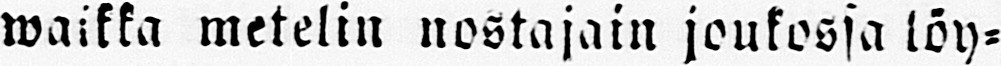waikka metelin nostajain joukossa löy-
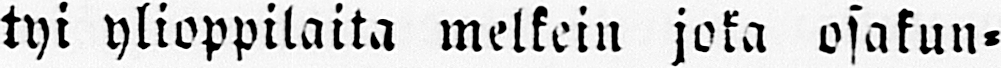tyi ylioppilaita melkein joka osakun-
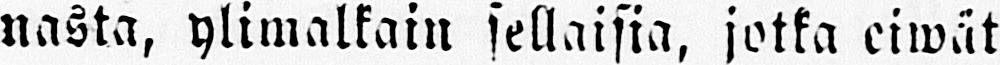nasta, ylimalkain sellaisia, jotka eiwät
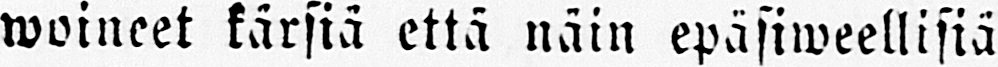woineet kärsiä että näin epäsiweellisiä
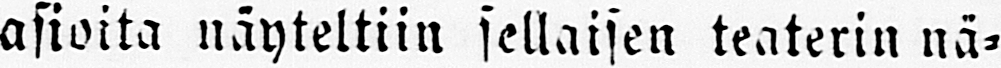asioita näyteltiin sellaisen teaterin nä-
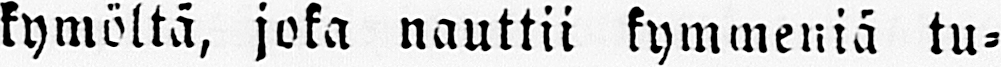kymöltä, joka nauttii kymmeniä tu-
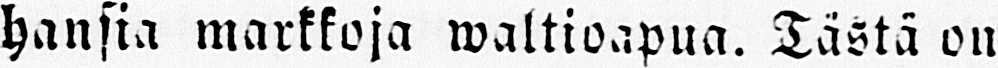hansia markkoja waltioapua. Tästä on
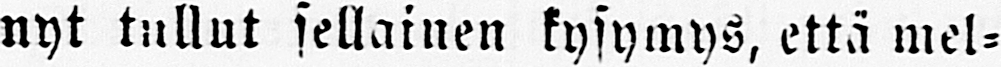nyt tullut sellainen kysymys, että mel-
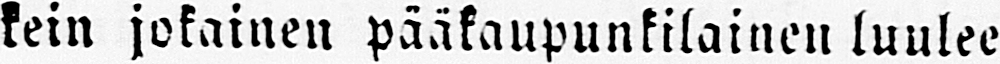kein jokainen pääkaupunkilainen luulee
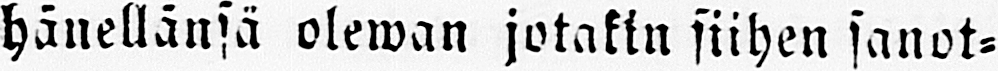hänellänsä olewan jotakin siihen sanot-
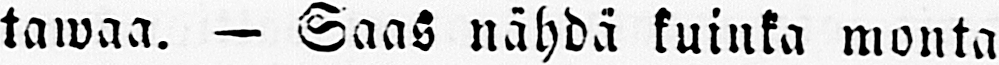tawaa. — Saas nähdä kuinka monta
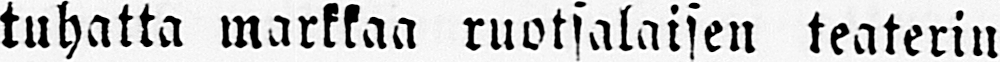tuhatta markkaa ruotsalaisen teaterin
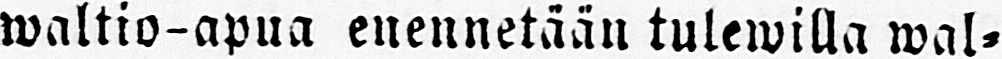waltio-apua enennetään tulewilla wal-
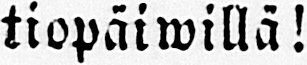tiopäiwillä!
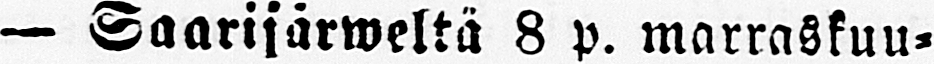— Saarijärweltä 8 p. marraskuu-
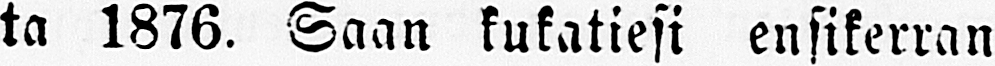ta 1876. Saan kukatiesi ensikerran
